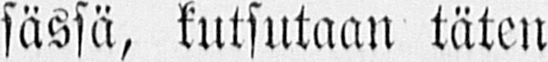sässä, kutsutaan täten
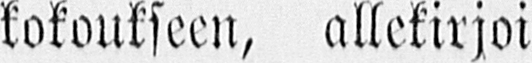kokoukseen, allekirjoi-
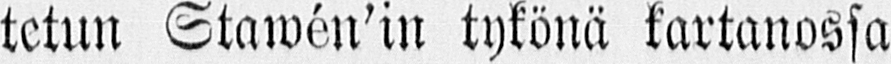tetun tykönä kartanossa
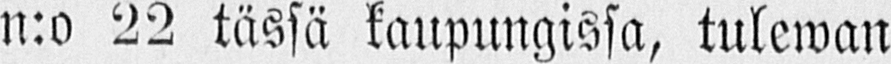n:o 22 tässä kaupungissa, tulewan
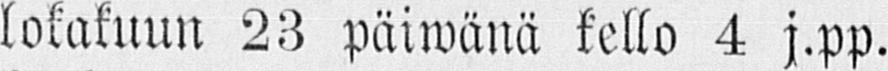lokakuun 23 päiwänä kello 4 j.pp.
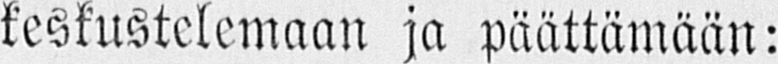keskustelemaan ja päättämään:
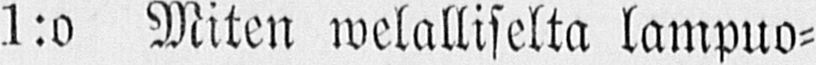1:o Miten welalliselta lampuo-
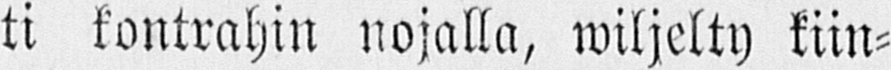ti kontrahin nojalla, wiljelty kiin-
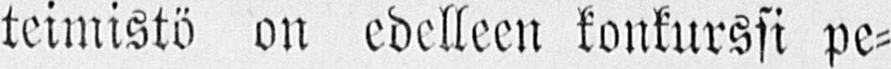teimistö on edelleen konkurssi pe-
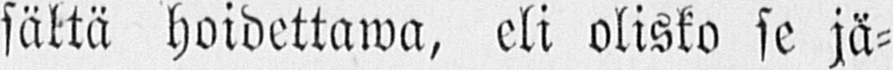sältä hoidettawa, eli olisko se jä-
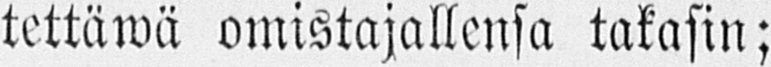tettäwä omistajallensa takasin;
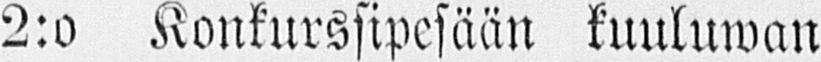2:o Konkurssipesään kuuluwan
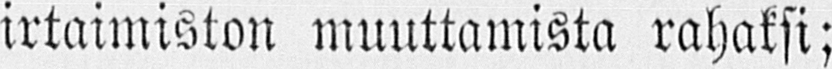irtaimiston muuttamista rahaksi;
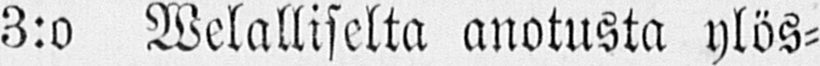3:o Welalliselta anotusta ylös-
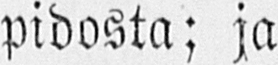pidosta; ja
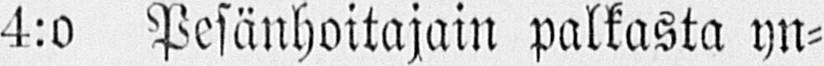4:o Pesänhoitajain palkasta yn-
